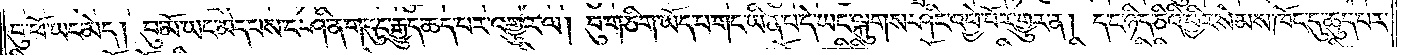བུ་ཕོ་ཡང་མེད། བུ་མོ་ཡང་མེད་པས་ང་ཤི་ན་གདུང་རྒྱུད་ཆད་པར་འགྱུར་ལ། བུ་གཅིག་ཡོད་པ་གང་ཡིན་པ་དེ་ཡང་ལྐུགས་ཤིང་འཕྱེ་བོར་གྱུར་ན། ད་ང་ཉིད་ཅིའི་ཕྱིར་སེམས་ཁོང་དུ་ཆུད་པར་
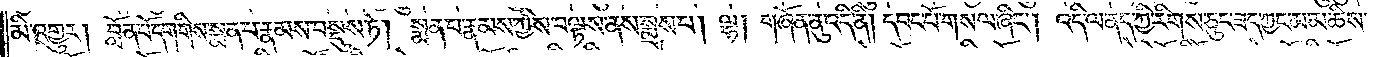མི་འགྱུར། བློན་པོ་དག་གིས་སྨན་པ་རྣམས་བསྡུས་ཏེ། སྨན་པ་རྣམས་ཀྱིས་བལྟས་ནས་སྨྲས་པ། ལྷ། གཞོན་ནུ་འདི་ནི། དབང་པོ་གསལ་ཞིང༌། འདི་ལ་ནད་ཀྱི་རིགས་ཅུང་ཟད་ཀྱང་མ་མཆིས་
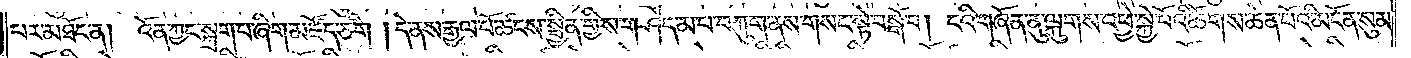པར་མཐོང་ན། འོན་ཀྱང་སྐྲག་པ་ཞིག་མཛོད་ཅིག །དེ་ནས་རྒྱལ་པོ་ཚངས་སྦྱིན་གྱིས་གཤེད་མ་པ་བཀུག་ནས་གསང་སྟེ་བསྒོ་བ། ངའི་གཞོན་ནུ་ལྐུགས་འཕྱེ་སྐྱེ་བོའི་ཚོགས་ཆེན་པོའི་མངོན་སུམ་
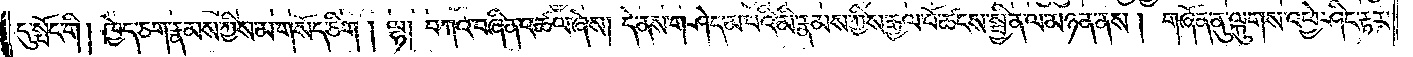དུ་སྤོང་གི། ཁྱེད་ཅག་རྣམས་ཀྱིས་མ་གསོད་ཅིག །ལྷ། བཀའ་བཞིན་འཚལ་ཞེས། དེ་ནས་གཤེད་མ་པའི་མི་རྣམས་ཀྱིས་རྒྱལ་པོ་ཚངས་སྦྱིན་ལ་མཉན་ནས། གཞོན་ནུ་ལྐུགས་འཕྱེ་ཤིང་རྟར་
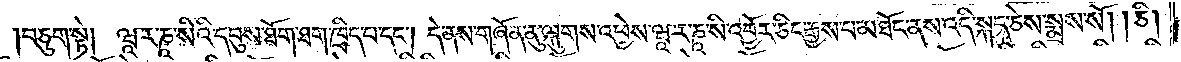།བཅུག་སྟེ། ཝཱ་ར་ཎཱ་སིའི་དབུས་ཐོག་ཐག་ཁྲིད་པ་དང༌། དེ་ནས་གཞོན་ནུ་ལྐུགས་འཕྱེས་ཝཱ་ར་ཎཱ་སི་འབྱོར་ཅིང་རྒྱས་པ་མཐོང་ནས་འདི་སྐད་ཅེས་སྨྲས་སོ། །ཅི།
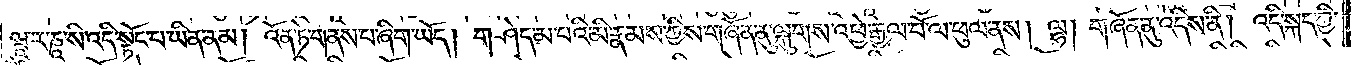ཝཱ་ར་ཎཱ་སི་འདི་སྟོང་པ་ཡིན་ནམ། འོན་ཏེ་གནས་པ་ཞིག་ཡོད། གཤེད་མ་པའི་མི་རྣམས་ཀྱིས་གཞོན་ནུ་ལྐུགས་འཕྱེ་རྒྱལ་པོ་ལ་ཕུལ་ནས། ལྷ། གཞོན་ནུ་འདིས་ནི། འདི་སྐད་ཀྱི་
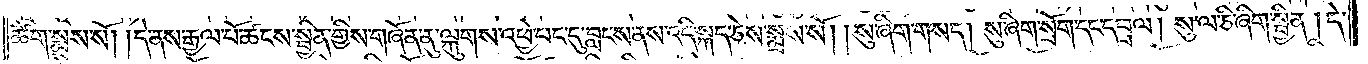ཚིག་སྨྲས་སོ། །དེ་ནས་རྒྱལ་པོ་ཚངས་སྦྱིན་གྱིས་གཞོན་ནུ་ལྐུགས་འཕྱེ་པང་དུ་བླངས་ནས་འདི་སྐད་ཅེས་སྨྲས་སོ། །སུ་ཞིག་གསད། སུ་ཞིག་སྲོག་དང་དབྲལ། སུ་ལ་ཅི་ཞིག་སྦྱིན་།དེ་
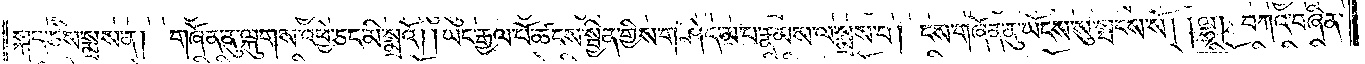སྐད་ཅེས་སྨྲས་ན། གཞོན་ནུ་ལྐུགས་འཕྱེ་ཅང་མི་སྨྲའོ། །ཡང་རྒྱལ་པོ་ཚངས་སྦྱིན་གྱིས་གཤེད་མ་པ་རྣམས་ལ་སྨྲས་པ། ངས་གཞོན་ནུ་ཡོངས་སུ་སྤངས་སོ། །ལྷ། བཀའ་བཞིན་
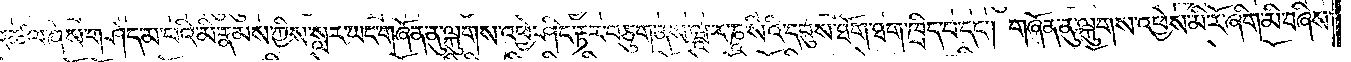འཚལ་ཞེས་གཤེད་མ་པའི་མི་རྣམས་ཀྱིས་སླར་ཡང་གཞོན་ནུ་ལྐུགས་འཕྱེ་ཤིང་རྟར་བཅུག་ནས་ཝཱ་ར་ཎཱ་སིའི་དབུས་ཐོག་ཐག་ཁྲིད་པ་དང༌། གཞོན་ནུ་ལྐུགས་འཕྱེས་མི་རོ་ཞིག་མི་བཞིས་
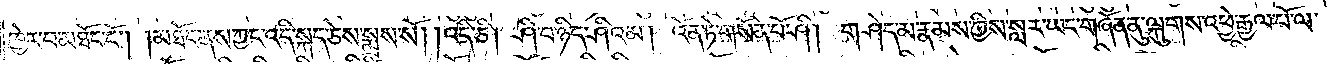ཁྱེར་བ་མཐོང་ངོ༌། །མཐོང་ནས་ཀྱང་འདི་སྐད་ཅེས་སྨྲས་སོ། །འདི་ཅི། ཤི་བ་ཉིད་ཤིའམ། འོན་ཏེ་གསོན་པོ་ཤི། གཤེད་མ་རྣམས་ཀྱིས་སླར་ཡང་གཞོན་ནུ་ལྐུགས་འཕྱེ་རྒྱལ་པོ་ལ་
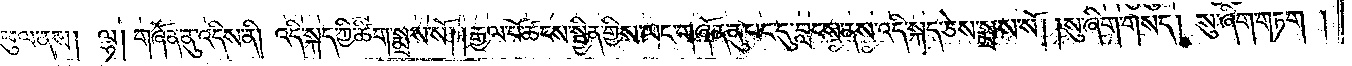ཕུལ་ནས། ལྷ། གཞོན་ནུ་འདིས་ནི། འདི་སྐད་ཀྱི་ཚིག་སྨྲས་སོ། །རྒྱལ་པོ་ཚངས་སྦྱིན་གྱིས་ཡང་གཞོན་ནུ་པང་དུ་བླངས་ནས་འདི་སྐད་ཅེས་སྨྲས་སོ། །སུ་ཞིག་གསད། སུ་ཞིག་གཏག །
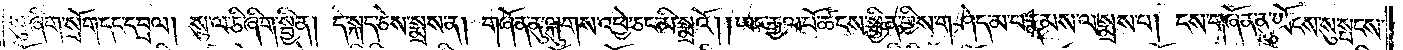སུ་ཞིག་སྲོག་དང་དབྲལ། སུ་ལ་ཅི་ཞིག་སྦྱིན། དེ་སྐད་ཅེས་སྨྲས་ན། གཞོན་ནུ་ལྐུགས་འཕྱེ་ཅང་མི་སྨྲའོ། །ཡང་རྒྱལ་པོ་ཚངས་སྦྱིན་གྱིས་གཤེད་མ་པ་རྣམས་ལ་སྨྲས་པ། ངས་གཞོན་ནུ་ཡོངས་སུ་སྤངས་
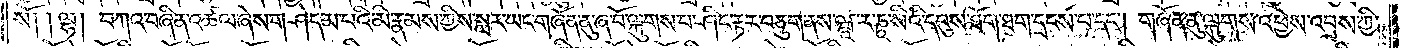སོ། །ལྷ། བཀའ་བཞིན་འཚལ་ཞེས་གཤེད་མ་པའི་མི་རྣམས་ཀྱིས་སླར་ཡང་གཞོན་ནུ་ཞ་བོ་ལྐུགས་པ་ཤིང་རྟར་བཅུག་ནས་ཝཱ་ར་ཎཱ་སིའི་དབུས་ཐོག་ཐག་དྲངས་པ་དང༌། གཞོན་ནུ་ལྐུགས་འཕྱེས་འབྲས་ཀྱི་
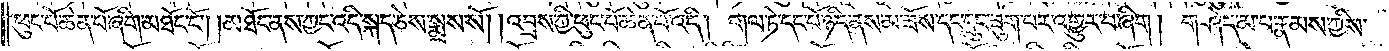ཕུང་པོ་ཆེན་པོ་ཞིག་མཐོང་ངོ༌། །མཐོང་ནས་ཀྱང་འདི་སྐད་ཅེས་སྨྲས་སོ། །འབྲས་ཀྱི་ཕུང་པོ་ཆེན་པོ་འདི། གལ་ཏེ་དང་པོ་ཉིད་ནས་མ་ཟོས་དང་དྲུང་ཟུག་པར་འགྱུར་བ་ཞིག། གཤེད་མ་པ་རྣམས་ཀྱིས་
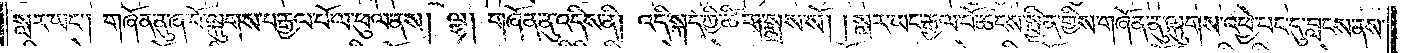སླར་ཡང༌། གཞོན་ནུ་ཞ་བོ་ལྐུགས་པ་རྒྱལ་པོ་ལ་ཕུལ་ནས། ལྷ། གཞོན་ནུ་འདིས་ནི། འདི་སྐད་ཀྱི་ཚིག་སྨྲས་སོ། །སླར་ཡང་རྒྱལ་པོ་ཚངས་སྦྱིན་གྱིས་གཞོན་ནུ་ལྐུགས་འཕྱེ་པང་དུ་བླངས་ནས་
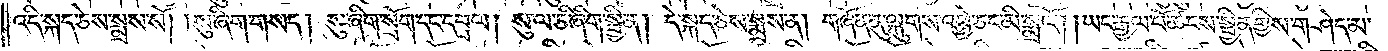འདི་སྐད་ཅེས་སྨྲས་སོ། །སུ་ཞིག་གསད། སུ་ཞིག་སྲོག་དང་བྲལ། སུ་ལ་ཅི་ཞིག་སྦྱིན། དེ་སྐད་ཅེས་སྨྲས་ན། གཞོན་ནུ་ལྐུགས་འཕྱེ་ཅང་མི་སྨྲའོ། །ཡང་རྒྱལ་པོ་ཚངས་སྦྱིན་གྱིས་གཤེད་མ་
